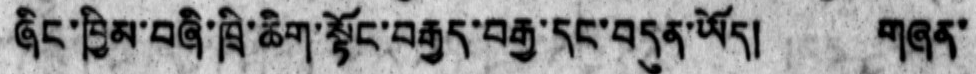ཞིང་ཁྱིམ་བཞི་ཁྲི་ཆིག་སྟོང་བརྒྱད་བརྒྱ་དང་བདུན་ཡོད། གཞན་
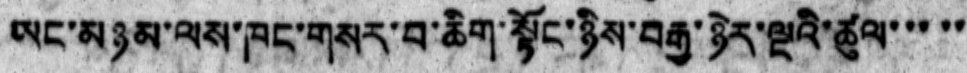ཡང་མཉམ་ལས་ཁང་གསར་བ་ཆིག་སྟོང་ཉིས་བརྒྱ་ཉེར་ལྔའི་ཚུལ་་་་་
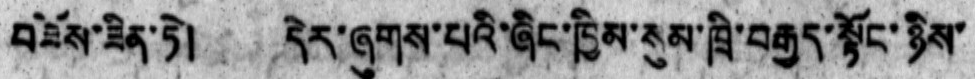བཟོས་ཟིན་ཏེ། དེར་ཞུགས་པའི་ཞིང་ཁྱིམ་སུམ་ཁྲི་བརྒྱད་སྟོང་ཉིས་
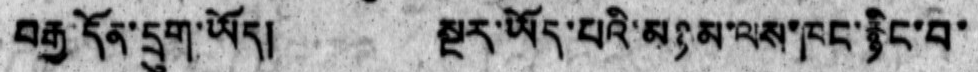བརྒྱ་དོན་དྲུག་ཡོད། སྔར་ཡོད་པའི་མཉམ་ལས་ཁང་རྙིང་བ་
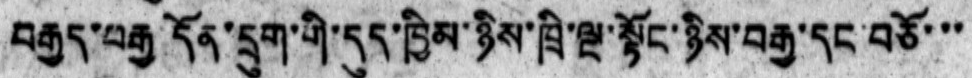བརྒྱད་བརྒྱ དོན་དྲུག་གི་དུད་ཁྱིམ་ཉིས་ཁྲི་ལྔ་སྟོང་ཉིས་བརྒྱ་དང་བཅོ་་་་
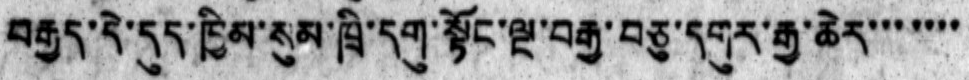བརྒྱད་དེ་དུད་ཁྱིམ་སུམ་ཁྲི་དགུ་སྟོང་ལྔ་བརྒྱ་བཅུ་དགུར་རྒྱ་ཆེར་་་་་་་
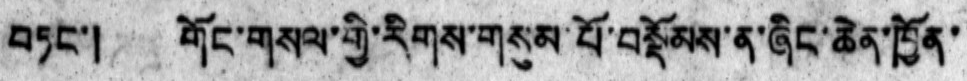བཏང་། གོང་གསལ་གྱི་རིགས་གསུམ་པོ་བསྡོམས་ན་ཞིང་ཆེན་ཁྱོན་
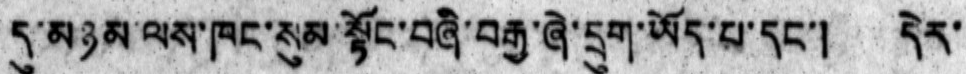དུ་མཉམ་ལས་ཁང་སུམ་སྟོང་བཞི་བརྒྱ་ཞེ་དྲུག་ཡོད་པ་དང་། དེར་
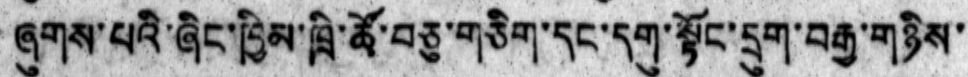ཞུགས་པའི་ཞིང་ཁྱིམ་ཁྲི་ཚོ་བཅུ་གཅིག་དང་དགུ་སྟོང་དྲུག་བརྒྱ་གཉིས་
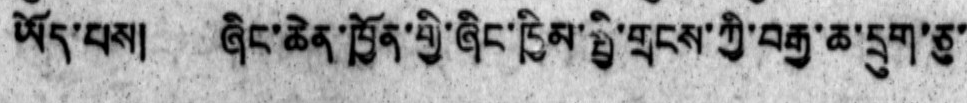ཡོད་པས། ཞིང་ཆེན་ཁྱོན་གྱི་ཞིང་ཁྱིམ་སྤྱི་གྲངས་ཀྱི་བརྒྱ་ཆ་དྲུག་ཅུ་
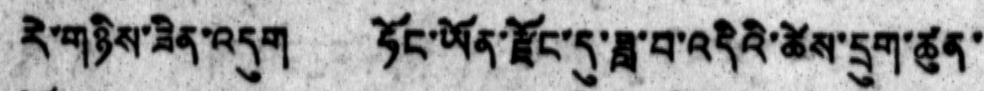རེ་གཉིས་ཟིན་འདུག ཧོང་ཡོན་རྫོང་དུ་ཟླ་བ་འདིའི་ཚེས་དྲུག་ཚུན་
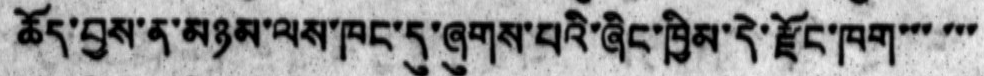ཆོད་བྱས་ན་མཉམ་ལས་ཁང་དུ་ཞུགས་པའི་ཞིང་ཁྱིམ་དེ་རྫོང་ཁག་་་་་
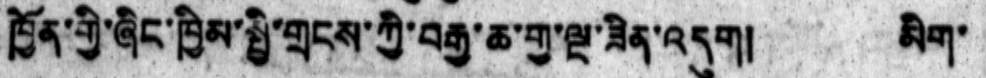ཁྱོན་གྱི་ཞིང་ཁྱིམ་སྤྱི་གྲངས་ཀྱི་བརྒྱ་ཆ་གྱ་ལྔ་ཟིན་འདུག། མིག་
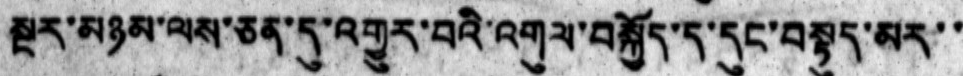སྔར་མཉམ་ལས་ཅན་དུ་འགྱུར་བའི་འགུལ་བསྐྱོད་ད་དུང་བསྟུད་མར་་
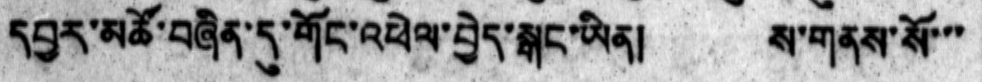དབྱར་མཚོ་བཞིན་དུ་གོང་འཕེལ་བྱེད་སྒང་ཡིན། ས་གནས་སོ་་་
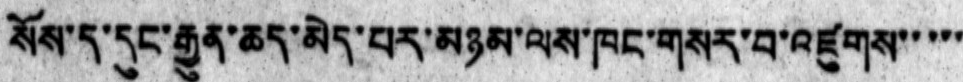སོས་ད་དུང་རྒྱུན་ཆད་མེད་པར་མཉམ་ལས་ཁང་གསར་བ་འཛུགས་་་་་
